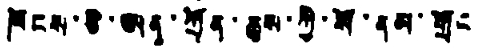ཁོངས་ཅི་ཨན་ཀྲོན་ཆུས་ཀྱི་སོ་ནམ་གྲོང
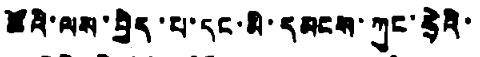ཚོའི་ལས་བྱེད་པ་དང་མི་དམངས་ཀུང་ཧྲེའི་
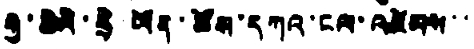རྒྱ་ཆེའི་ཧྲེ་ཡོན་ཚོས་དཀའ་ངལ་འཛེམས་་
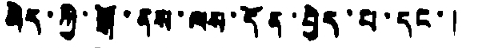མེད་ཀྱི་སྒོ་ནས་ལས་དོན་བྱེད་པ་དང་།
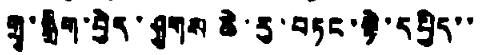གྲྭ་སྒྲིག་བྱེད་ཤུགས ཆེ་རུ་བཏང་སྟེ་དཔྱིད་་
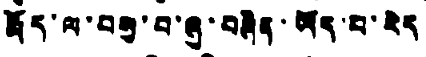རྨོད་ལ་བསུ་བ་ཞུ་བཞིན་ཡོད་པ་རེད
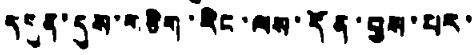ད དུན་དུས་གཅིག་རིང་ལས་དོན་བྱས་པར་
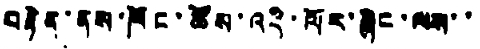བརྟེན་ནས་ཁོང་ཚོས་འདི་ལོར་ཞིང་ལས་་
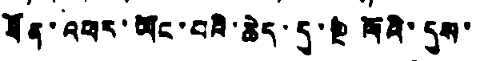ཐོན་འཕར་ཡོང་བའི་ཆེད་དུ་སྔ ལོའི་དུས་
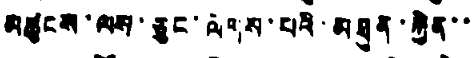མཚུངས་ལས་ཅུང་ལེགས་པའི་མཐུན་སྐྱེན་་
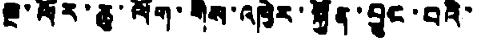སྔ་ལོར་ཆུ་ལོག་གིས་འཁྱེར་སྐྱོན་བྱུང་བའི་
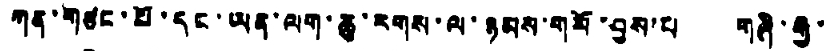ཀན་གཙང་པོ་དང་ཡན་ལག་ཆུ་རགས་ལ་ཉམས་གསོ་བྱས་པ གཞི་རྒྱ་་
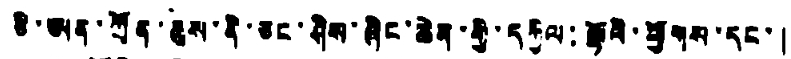ཅི་ཨན་ཀྲོན་ཆུས་ནི་ཅང་ཤིས་ཞིང་ཆེན་གྱི་དཀྱིལ་ལྷོའི་ཕྱོགས་དང་།
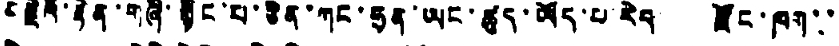བརྗེའི་རྟེན་གཞི་རྙིང་པ་ཅིན་ཀང་ཧྲན་ཡང་ཚུད་ཡོད་པ་རེད། རྫོང་ཁག་་
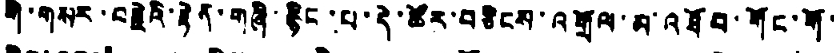གི་གསར་བརྗེའི་རྟེན་གཞི་རྙིང་པ་དེ་ཚོར་བཅིངས་འགྲོལ་མ་འཐོབ་གོང་གོ་
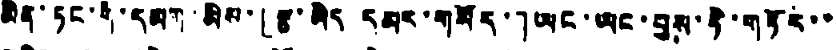མིན་ཏང་གི་དམག་མིས་「རྩ་མེད དམར་གསོད་」ཡང་ཡང་བྱས་ཏེ་གཏོར་་
